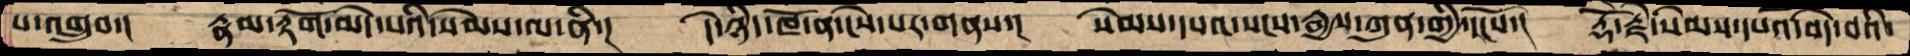པ་འགྲུབ་།  རྣམ་རྟོག་མེད་པའི་སེམས་ལ་ནི་།  དེ་ཉིད་ཁོ་ན་ངེས་པར་གནས་།  སེམས་དཔའ་སངས་རྒྱས་ཀུན་གྱིས་དངོས་།  རྡོ་རྗེ་སེམས་དཔའ་བདེ་བའི་
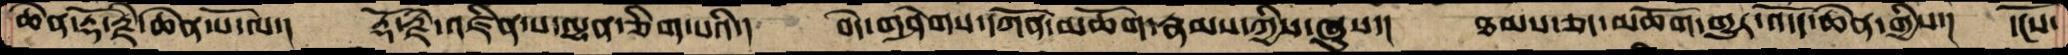ཆེན་རྡོ་རྗེ་ཆེན་པོ་ལ་།  རྡོ་རྗེ་འཛིན་པ་ལྡན་ཅིག་པའི་།  བདེ་གཤེགས་དཀོན་མཆོག་རྣམས་ཀྱིས་ཞུས་།  ཐམས་ཅད་མཆོག་གྱུར་འདོད་ཆེན་གྱིས་།  དངོས་
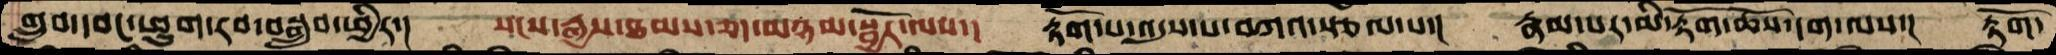གྲུབ་དབང་ཕྱུག་རབ་བསྒྲུབ་ཕྱིར་།  སངས་རྒྱས་ཐམས་ཅད་མཉམ་སྦྱོར་ལས་།  རྟོག་པ་འདུས་པ་བཀའ་སྩལ་པ་།  རྣམ་པར་མི་རྟོག་ཆོས་དག་ལས་།  རྟོག་
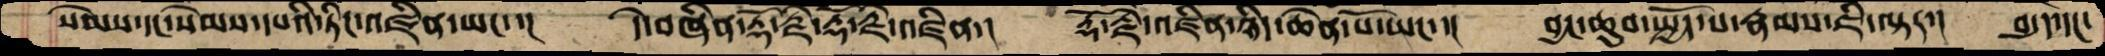སེམས་དང་སེམས་དཔའི་ཏིང་འཛིན་ཡང་་།  དེ་བཞིན་རྡོ་རྗེ་རྡོ་རྗེ་འཛིན་།  རྡོ་རྗེ་འཛིན་ཉིད་ཆེན་པོ་ཡང་་།  བྱང་ཆུབ་སྤྱོད་པ་རྣམས་ཇི་ལྟར་།  བདུད་དང་
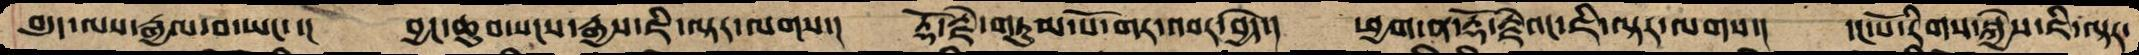བདུད་ལས་རྒྱལ་བ་ཡང་་།  བྱང་ཆུབ་སངས་རྒྱས་ཇི་ལྟར་ལགས་།  རྡོ་རྗེ་གཏུམ་པོ་གར་འབར་བྱེད་།  ཕྱག་ན་རྡོ་རྗེའང་ཇི་ལྟར་ལགས་།  དང་པོ་རིགས་སྐྱེས་ཇི་ལྟར་
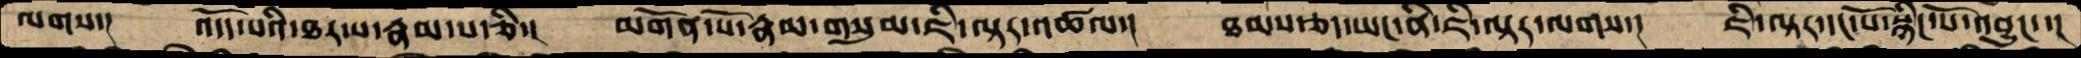ལགས་།  འདོད་པའི་ཐར་པ་རྣམ་པ་ཅི་།  མགོན་པོ་རྣམ་གསུམ་ཇི་ལྟར་འཚལ་།  ཐམས་ཅད་ཡང་ནི་ཇི་ལྟར་ལགས་།  ཇི་ལྟར་དང་པོ་སྙིང་པོ་འབྱུང་།
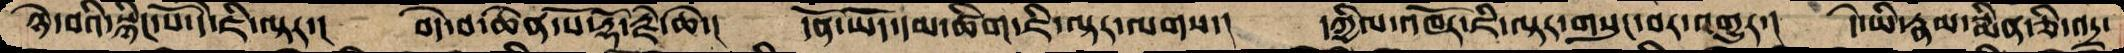ཉེ་བའི་སྙིང་པོ་དེ་ཇི་ལྟར་།  བདེ་བ་ཆེན་པོ་རྡོ་རྗེ་ཆེ་།  དོན་ཡོད་དམ་ཚིག་ཇི་ལྟར་ལགས་།  དཀྱིལ་འཁོར་ཇི་ལྟར་གསུང་བར་འགྱུར་།  དེ་ཡི་རྣམ་སྨིན་ཅི་འདྲ་
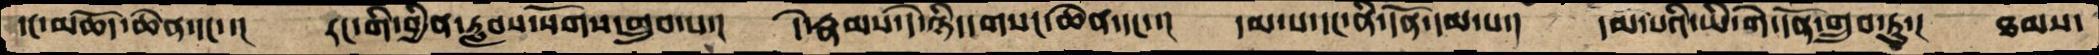དང་མཆོད་ཆེན་དང་་།  རང་གི་བྱིན་བརླབས་སོགས་གྲུབ་པ་།  དེ་རྣམས་དེ་ཉིད་གསང་ཆེན་དང་་།  དམ་པ་དང་ནི་དོན་དམ་པ་།  དམ་པའི་ཡི་གེ་དོན་གྲུབ་ཏུ་།  ཐམས་
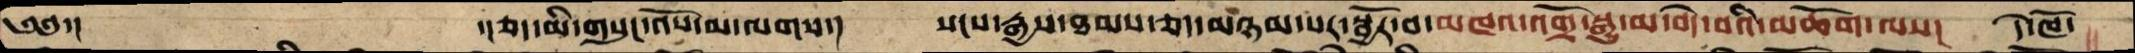༄༅་།                ་།་ཅད་མི་གསུང་འོས་མ་ལགས་།  སངས་རྒྱས་ཐམས་ཅད་མཉམ་པར་སྦྱོར་བ་མཁའ་འགྲོ་སྒྱུ་མ་བདེ་བའི་མཆོག་ལས་།  དེ་ཁོ་
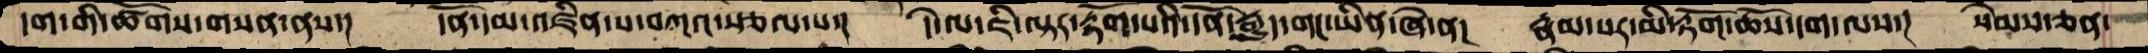དག་གི་ཚོགས་གསན་ནས་།  དོན་དམ་འཛིན་པ་བཀའ་སྩལ་པ་།  དེ་ལ་ཇི་ལྟར་རྟོག་པའི་དོན་རྒྱུད་གང་ཡིན་ཞེ་ན་།  རྣམ་པར་མི་རྟོག་ཆོས་དག་ལས་།  སེམས་ཅན་
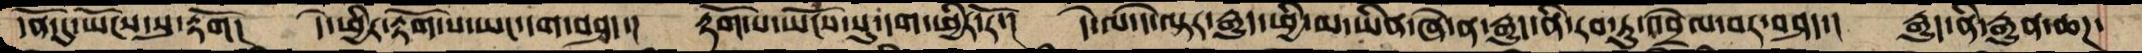དོན་དུ་ཡོངས་སུ་རྟོག།  དེ་ཕྱིར་རྟོག་པ་ཡང་དག་བཤད་།  རྟོག་པ་ཡོངས་སུ་དག་ཕྱིར་རོ་།  དེ་ལ་དེ་ལྟར་རྒྱུད་ཕྱི་མ་ཡིན་ཞེ་ན་རྒྱུད་ནི་རབ་ཏུ་འབྲེལ་བར་བཤད་།  རྒྱུད་ནི་རྒྱུན་ཆཌ་
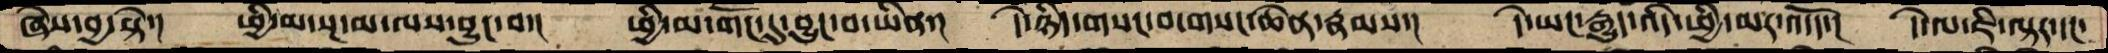ཞེས་བྱ་སྟེ་།  ཕྱི་མ་སྔ་མ་ལས་བྱུང་བ་།  ཕྱི་མ་གོང་དུ་བྱུང་བ་ཡིན་།  དེ་ཉིད་གསང་བ་གསང་ཆེན་རྣམས་།  དེ་ཡང་རྒྱུད་འདི་ཕྱི་མར་འདོད་།  དེ་ལ་ཇི་ལྟར་དང་
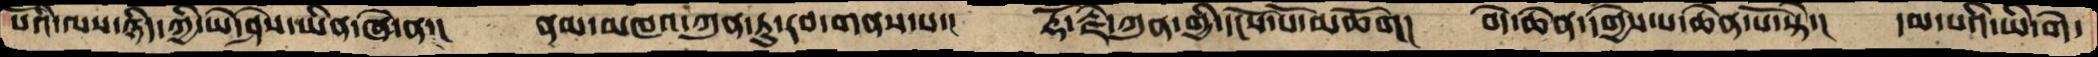པའི་ལས་ཉིད་ཀྱི་ཡེ་ཤེས་ཡིན་ཞེ་ན་།  ནམ་མཁའ་ཀུན་ཏུ་རབ་གནས་པ་།  རྡོ་རྗེ་ཀུན་གྱི་དངོས་པོ་མཆོག།  བདེ་ཆེན་དགྱེས་པ་ཆེན་པོ་སྟེ་།  དམ་པའི་ཡི་གེ་
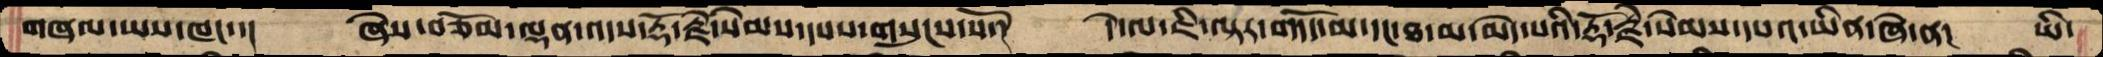གཞལ་ཡས་ཁང་།  ཞེས་བཅོམ་ལྡན་འདས་རྡོ་རྗེ་སེམས་དཔས་གསུངས་སོ་།  དེ་ལ་ཇི་ལྟར་གདོད་མ་དང་ཐ་མ་མེད་པའི་རྡོ་རྗེ་སེམས་དཔའ་ཡིན་ཞེ་ན་།  ཡི་
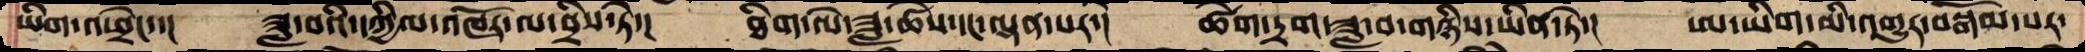ཡིག་འཕྲེང་་།  ཟླ་བའི་དཀྱིལ་འཁོར་ལ་བྲིས་ཏེ་།  ཐིག་ལེ་ཟླ་ཚེས་དང་ལྡན་པར་།  ཚེག་དྲག་ཟླ་བ་གཉིས་ཡིན་ཏེ་།  ཨ་ཡིག་མི་འགྱུར་བསྒོམ་པར་
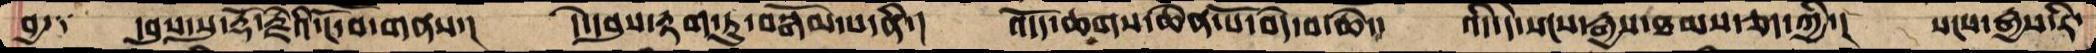བྱ་།  དབུས་སུ་རྡོ་རྗེ་ངོ་བོ་གནས་།  དེ་དབུས་རྟག་ཏུ་བསྒོམ་པ་ནི་།  འདོད་ཆགས་ཆེན་པོ་བདེ་བ་ཆེ་།  འདི་དེ་སངས་རྒྱས་ཐམས་ཅད་ཀྱི་།  སངས་རྒྱས་རི་
